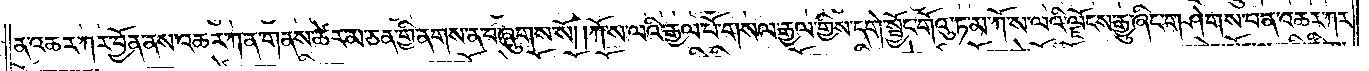ན་འཆར་ཀར་བྱོན་ནས་འཆར་ཀ་ན་གནས་ཚེར་མ་ཅན་གྱི་ནགས་ན་བཞུགས་སོ། །ཀོ་ས་ལའི་རྒྱལ་པོ་གསལ་རྒྱལ་གྱིས་དགེ་སྦྱོང་གོའུ་ཏ་མ་ཀོ་ས་ལའི་ལྗོངས་རྒྱུ་ཞིང་གཤེགས་པ་ན་འཆར་ཀར་
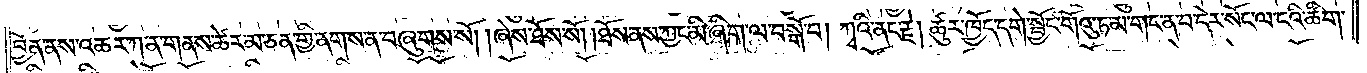བྱོན་ནས་འཆར་ཀ་ན་གནས་ཚེར་མ་ཅན་གྱི་ནགས་ན་བཞུགས་སོ། །ཞེས་ཐོས་སོ། །ཐོས་ནས་ཀྱང་མི་ཞིག་ལ་བསྒོ་བ། ཀྭའི་ནང་རྗེ། ཚུར་ཁྱོད་དགེ་སྦྱོང་གོའུ་ཏ་མ་གང་ན་བ་དེར་སོང་ལ་ངའི་ཚིག་
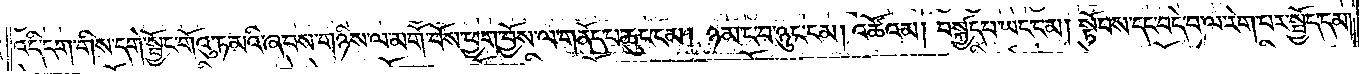འདི་དག་གིས་དགེ་སྦྱོང་གོའུ་ཏ་མའི་ཞབས་གཉིས་ལ་མགོ་བོས་ཕྱག་བྱོས་ལ་གནོད་པ་ཆུང་ངམ། ཉམ་ང་བ་ཉུང་ངམ། འཚོའམ། བསྐྱོད་པ་ཡང་ངམ། སྟོབས་དང་བདེ་བ་ལ་རེག་པར་སྤྱོད་དམ།
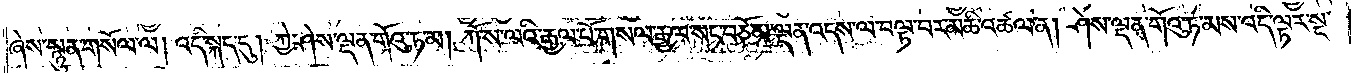ཞེས་སྙུན་གསོལ་ལ། འདི་སྐད་དུ། ཀྱེ་ཤེས་ལྡན་གོའུ་ཏ་མ། ཀོ་ས་ལའི་རྒྱལ་པོ་གསལ་རྒྱལ་སང་བཅོམ་ལྡན་འདས་ལ་བལྟ་བར་མཆི་འཚལ་ན། ཤེས་ལྡན་གོའུ་ཏ་མས་འདི་ལྟར་སྔ་
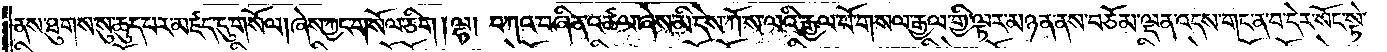ནས་ཐུགས་སུ་ཆུད་པར་མཛད་དུ་གསོལ། ཞེས་ཀྱང་གསོལ་ཅིག །ལྷ། བཀའ་བཞིན་འཚལ་ཞེས་མི་དེས་ཀོ་ས་ལའི་རྒྱལ་པོ་གསལ་རྒྱལ་གྱི་ལྟར་མཉན་ནས་བཅོམ་ལྡན་འདས་གང་ན་བ་དེར་སོང་སྟེ་
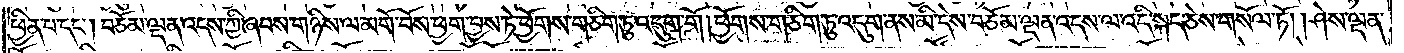ཕྱིན་པ་དང༌། བཅོམ་ལྡན་འདས་ཀྱི་ཞབས་གཉིས་ལ་མགོ་བོས་ཕྱག་བྱས་ཏེ་ཕྱོགས་གཅིག་ཏུ་འདུག་གོ །ཕྱོགས་གཅིག་ཏུ་འདུག་ནས་མི་དེས་བཅོམ་ལྡན་འདས་ལ་འདི་སྐད་ཅེས་གསོལ་ཏོ། །ཤེས་ལྡན་
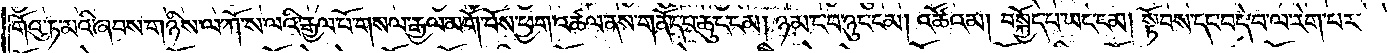གོའུ་ཏ་མའི་ཞབས་གཉིས་ལ་ཀོ་ས་ལའི་རྒྱལ་པོ་གསལ་རྒྱལ་མགོ་བོས་ཕྱག་འཚལ་ནས་གནོད་པ་ཆུང་ངམ། ཉམ་ང་བ་ཉུང་ངམ། འཚོའམ། བསྐྱོད་པ་ཡང་ངམ། སྟོབས་དང་བདེ་བ་ལ་རེག་པར་
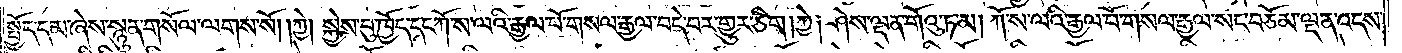སྤྱོད་དམ་ཞེས་སྙུན་གསོལ་ལགས་སོ། །ཀྱེ། སྐྱེས་བུ་ཁྱོད་དང་ཀོ་ས་ལའི་རྒྱལ་པོ་གསལ་རྒྱལ་བདེ་བར་གྱུར་ཅིག །ཀྱེ། ཤེས་ལྡན་གོའུ་ཏ་མ། ཀོ་ས་ལའི་རྒྱལ་པོ་གསལ་རྒྱལ་སང་བཅོམ་ལྡན་འདས་
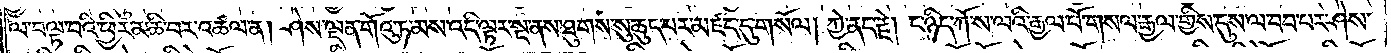ལ་བལྟ་བའི་ཕྱིར་མཆི་བར་འཚལ་ན། ཤེས་ལྡན་གོའུ་ཏ་མས་འདི་ལྟར་སྔ་ནས་ཐུགས་སུ་ཆུད་པར་མཛད་དུ་གསོལ། ཀྱེ་ནང་རྗེ། ང་ཉིད་ཀོ་ས་ལའི་རྒྱལ་པོ་གསལ་རྒྱལ་གྱིས་དུས་ལ་བབ་པར་ཤེས་
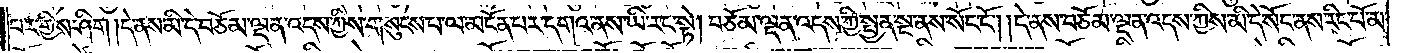པར་གྱིས་ཤིག །དེ་ནས་མི་དེ་བཅོམ་ལྡན་འདས་ཀྱིས་གསུངས་པ་ལ་མངོན་པར་དགའ་ནས་ཡི་རང་སྟེ། བཅོམ་ལྡན་འདས་ཀྱི་སྤྱན་སྔ་ནས་སོང་ངོ༌། །དེ་ནས་བཅོམ་ལྡན་འདས་ཀྱིས་མི་དེ་སོང་ནས་རིང་པོ་མ་
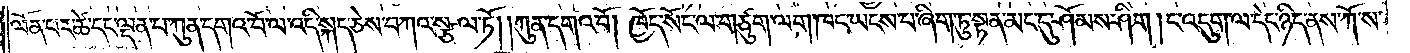ལོན་པར་ཚེ་དང་ལྡན་པ་ཀུན་དགའ་བོ་ལ་འདི་སྐད་ཅེས་བཀའ་སྩལ་ཏོ། །ཀུན་དགའ་བོ། ཁྱོད་སོང་ལ་གཙུག་ལག་ཁང་ཡངས་པ་ཞིག་ཏུ་སྟན་མང་དུ་ཤོམས་ཤིག །ང་འདུག་ལ་དེང་ཉིད་ནས་ཀོ་ས་
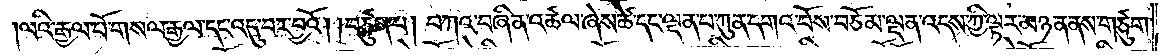།ལའི་རྒྱལ་པོ་གསལ་རྒྱལ་དང་འདུ་བར་བྱའོ། །བཙུན་པ། བཀའ་བཞིན་འཚལ་ཞེས་ཚེ་དང་ལྡན་པ་ཀུན་དགའ་བོས་བཅོམ་ལྡན་འདས་ཀྱི་ལྟར་མཉན་ནས་གཙུག་
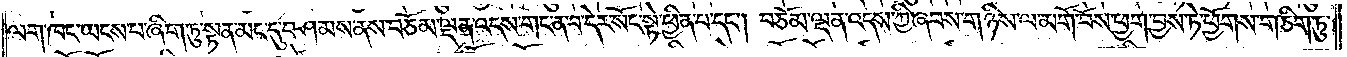ལག་ཁང་ཡངས་པ་ཞིག་ཏུ་སྟན་མང་དུ་བཤམས་ནས་བཅོམ་ལྡན་འདས་གང་ན་བ་དེར་སོང་སྟེ་ཕྱིན་པ་དང༌། བཅོམ་ལྡན་འདས་ཀྱི་ཞབས་གཉིས་ལ་མགོ་བོས་ཕྱག་བྱས་ཏེ་ཕྱོགས་གཅིག་ཏུ་
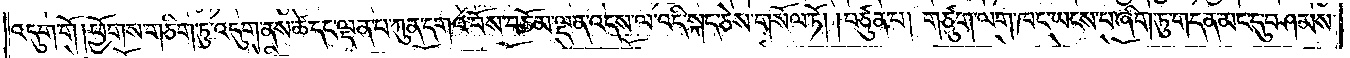འདུག་གོ །ཕྱོགས་གཅིག་ཏུ་འདུག་ནས་ཚེ་དང་ལྡན་པ་ཀུན་དགའ་བོས་བཅོམ་ལྡན་འདས་ལ་འདི་སྐད་ཅེས་གསོལ་ཏོ། །བཙུན་པ། གཙུག་ལག་ཁང་ཡངས་པ་ཞིག་ཏུ་གདན་མང་དུ་བཤམས་
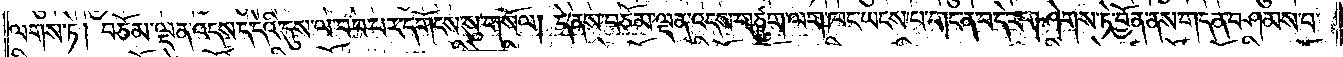ལགས་ཏེ། བཅོམ་ལྡན་འདས་ད་དེའི་དུས་ལ་བབ་པར་དགོངས་སུ་གསོལ། དེ་ནས་བཅོམ་ལྡན་འདས་གཙུག་ལག་ཁང་ཡངས་པ་གང་ན་བ་དེར་གཤེགས་ཏེ་བྱོན་ནས་གདན་བཤམས་པ་
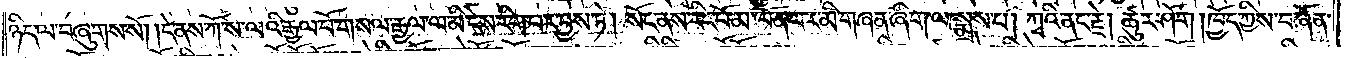ཉིད་ལ་བཞུགས་སོ། །དེ་ནས་ཀོ་ས་ལའི་རྒྱལ་པོ་གསལ་རྒྱལ་ལ་མི་དེས་རིག་པར་བྱས་ཏེ། སོང་ནས་རིང་པོ་མ་ལོན་པར་མི་གཞན་ཞིག་ལ་སྨྲས་པ། ཀྭའི་ནང་རྗེ། ཚུར་ཤོག །ཁྱོད་ཀྱིས་བཞོན་
